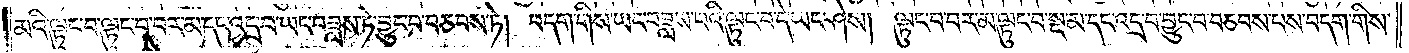མའི་ལྟུང་བ་ལྟུང་བ་བར་མ་དང་འདྲ་བ་ཡང་བཟླས་ཏེ་བྱུང་བ་བཅབས་ཏེ། བདག་གིས་ཡང་བཟླས་པའི་ལྟུང་བ་དེ་ཡང་ཤེས། ལྟུང་བ་བར་མ་ལྟུང་བ་སྔ་མ་དང་འདྲ་བ་བྱུང་བ་བཅབས་པས་བདག་གིས་
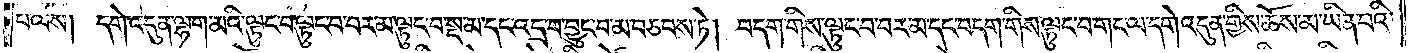པ་ལས། དགེ་འདུན་ལྷག་མའི་ལྟུང་བ་ལྟུང་བ་བར་མ་ལྟུང་བ་སྔ་མ་དང་འདྲ་བ་བྱུང་བ་མ་བཅབས་ཏེ། བདག་གིས་ལྟུང་བ་བར་མ་དང་བདག་གིས་ལྟུང་བ་གང་ལ་དགེ་འདུན་གྱིས་ཆོས་མ་ཡིན་པའི་
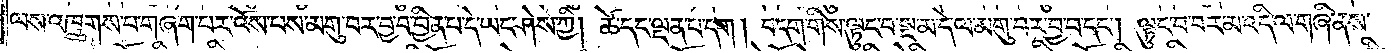ལས་འཁྲུགས་པ་གཞག་པར་འོས་པས་མགུ་བར་བྱ་བ་བྱིན་པ་དེ་ཡང་ཤེས་ཀྱི། ཚེ་དང་ལྡན་པ་དག །བདག་གིས་ལྟུང་བ་སྔ་མ་དེ་ལ་མགུ་བར་བྱ་བ་དང༌། ལྟུང་བ་བར་མ་འདི་ལ་གཞི་ནས་
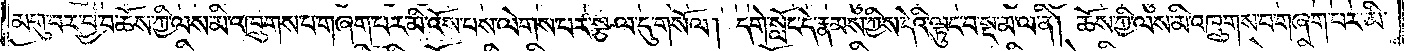མགུ་བར་བྱ་བ་ཆོས་ཀྱི་ལས་མི་འཁྲུགས་པ་གཞག་པར་མི་འོས་པས་ལེགས་པར་སྩལ་དུ་གསོལ། དགེ་སློང་དེ་རྣམས་ཀྱིས་དེའི་ལྟུང་བ་སྔ་མ་ལ་ནི། ཆོས་ཀྱི་ལས་མི་འཁྲུགས་པ་གཞག་པར་མི་
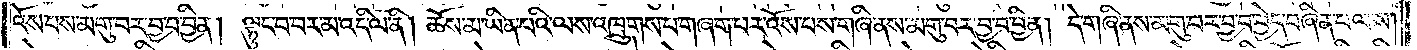འོས་པས་མགུ་བར་བྱ་བ་བྱིན། ལྟུང་བ་བར་མ་འདི་ལ་ནི། ཆོས་མ་ཡིན་པའི་ལས་འཁྲུགས་པ་གཞག་པར་འོས་པས་གཞི་ནས་མགུ་བར་བྱ་བ་བྱིན། དེ་གཞི་ནས་མགུ་བར་བྱ་བ་བྱེད་བཞིན་པ་ལས།
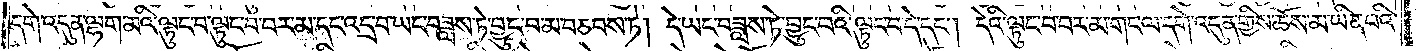དགེ་འདུན་ལྷག་མའི་ལྟུང་བ་ལྟུང་བ་བར་མ་དང་འདྲ་བ་ཡང་བཟླས་ཏེ་བྱུང་བ་མ་བཅབས་ཏེ། དེ་ཡང་བཟླས་ཏེ་བྱུང་བའི་ལྟུང་བ་དེ་དང༌། དེའི་ལྟུང་བ་བར་མ་གང་ལ་དགེ་འདུན་གྱིས་ཆོས་མ་ཡིན་པའི་
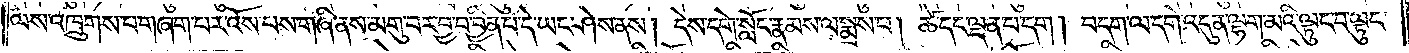ལས་འཁྲུགས་པ་གཞག་པར་འོས་པས་གཞི་ནས་མགུ་བར་བྱ་བ་བྱིན་པ་དེ་ཡང་ཤེས་ནས། དེས་དགེ་སློང་རྣམས་ལ་སྨྲས་པ། ཚེ་དང་ལྡན་པ་དག །བདག་ལ་དགེ་འདུན་ལྷག་མའི་ལྟུང་བ་ལྟུང་
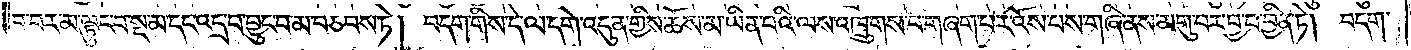བ་བར་མ་ལྟུང་བ་སྔ་མ་དང་འདྲ་བ་བྱུང་བ་མ་བཅབས་ཏེ། བདག་གིས་དེ་ལ་དགེ་འདུན་གྱིས་ཆོས་མ་ཡིན་པའི་ལས་འཁྲུགས་པ་གཞག་པར་འོས་པས་གཞི་ནས་མགུ་བར་བྱ་བ་བྱིན་ཏེ། བདག་
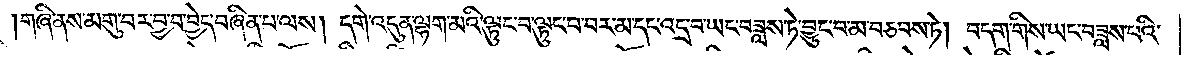།གཞི་ནས་མགུ་བར་བྱ་བ་བྱེད་བཞིན་པ་ལས། དགེ་འདུན་ལྷག་མའི་ལྟུང་བ་ལྟུང་བ་བར་མ་དང་འདྲ་བ་ཡང་བཟླས་ཏེ་བྱུང་བ་མ་བཅབས་ཏེ། བདག་གིས་ཡང་བཟླས་པའི་
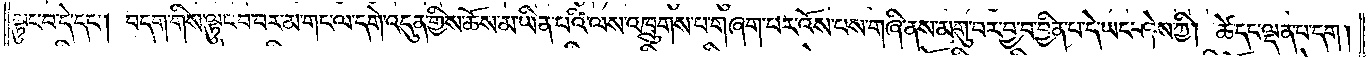ལྟུང་བ་དེ་དང༌། བདག་གིས་ལྟུང་བ་བར་མ་གང་ལ་དགེ་འདུན་གྱིས་ཆོས་མ་ཡིན་པའི་ལས་འཁྲུགས་པ་གཞག་པར་འོས་པས་གཞི་ནས་མགུ་བར་བྱ་བ་བྱིན་པ་དེ་ཡང་ཤེས་ཀྱི། ཚེ་དང་ལྡན་པ་དག །
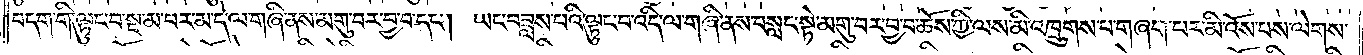བདག་གི་ལྟུང་བ་སྔ་མ་བར་མ་དེ་ལ་གཞི་ནས་མགུ་བར་བྱ་བ་དང༌། ཡང་བཟླས་པའི་ལྟུང་བ་འདི་ལ་གཞི་ནས་བསླང་སྟེ་མགུ་བར་བྱ་བ་ཆོས་ཀྱི་ལས་མི་འཁྲུགས་པ་གཞག་པར་མི་འོས་པས་ལེགས་
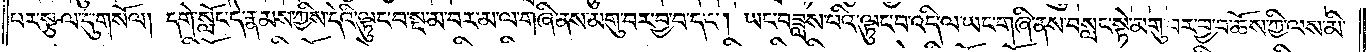པར་སྩལ་དུ་གསོལ། དགེ་སློང་དེ་རྣམས་ཀྱིས་དེའི་ལྟུང་བ་སྔ་མ་བར་མ་ལ་གཞི་ནས་མགུ་བར་བྱ་བ་དང༌། ཡང་བཟླས་པའི་ལྟུང་བ་འདི་ལ་ཡང་གཞི་ནས་བསླང་སྟེ་མགུ་བར་བྱ་བ་ཆོས་ཀྱི་ལས་མི་
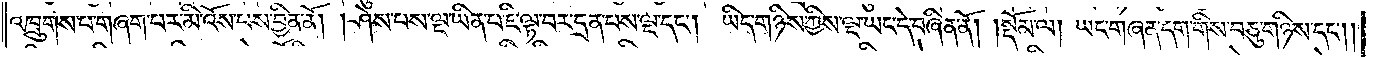འཁྲུགས་པ་གཞག་པར་མི་འོས་པས་བྱིན་ནོ། །ཤེས་པས་ལྔ་ཡིན་པ་ཇི་ལྟ་བར་དྲན་པས་ལྔ་དང༌། ཡིད་གཉིས་ཀྱིས་ལྔ་ཡང་དེ་བཞིན་ནོ།    །སྡོམ་ལ། ཡང་གཞན་དག་གིས་བཅུ་གཉིས་དང༌༎
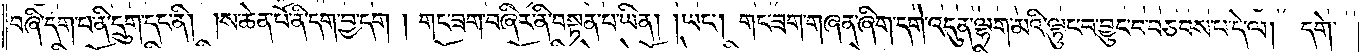བཞི་དག་པ་ནི་དྲུག་དང་ནི། །ས་ཆེན་པོ་ནི་དག་བྱ་དག །གང་ཟག་བཞིར་ནི་བསྟན་པ་ཡིན། །ཡང༌། གང་ཟག་གཞན་ཞིག་དགེ་འདུན་ལྷག་མའི་ལྟུང་བ་ལྟུང་བ་བྱུང་བ་བཅབས་པ་དེ་ལ། དགེ་
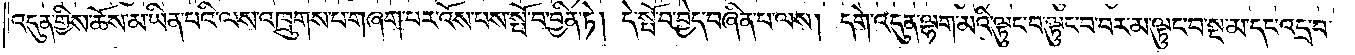འདུན་གྱིས་ཆོས་མ་ཡིན་པའི་ལས་འཁྲུགས་པ་གཞག་པར་འོས་པས་སྤོ་བ་བྱིན་ཏེ། དེ་སྤོ་བ་བྱེད་བཞིན་པ་ལས། དགེ་འདུན་ལྷག་མའི་ལྟུང་བ་ལྟུང་བ་བར་མ་ལྟུང་བ་སྔ་མ་དང་འདྲ་བ་
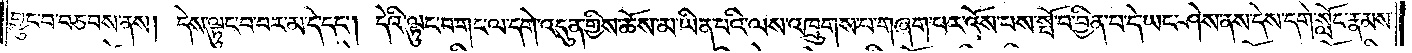བྱུང་བ་བཅབས་ནས། དེས་ལྟུང་བ་བར་མ་དེ་དང༌། དེའི་ལྟུང་བ་གང་ལ་དགེ་འདུན་གྱིས་ཆོས་མ་ཡིན་པའི་ལས་འཁྲུགས་པ་གཞག་པར་འོས་པས་སྤོ་བ་བྱིན་པ་དེ་ཡང་ཤེས་ནས་དེས་དགེ་སློང་རྣམས་
